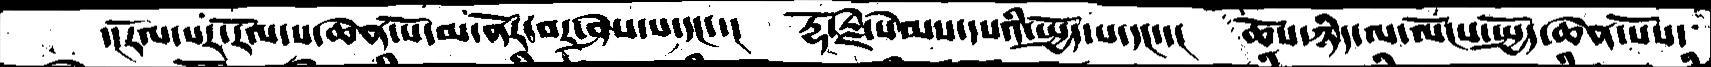་།རོལ་པར་རོལ་པ་ཆེན་པ་མ་ནོར་བར་ཤེས་པ་དང་་།  རྡོ་རྗེ་སེམས་དཔའི་སྤྱོད་པ་དང་་།  ཆོས་ཉིད་ལ་ལོངས་སྤྱོད་ཆེན་པོས་
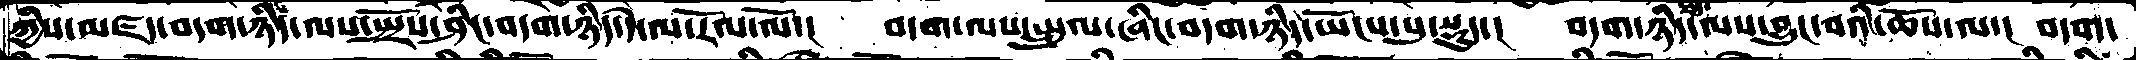ཀྱིས་མཛད་བདག་ཉིད་ལས་སྤྲོས་ཤིང་བདག་ཉིད་དེ་ལ་རོལ་ལོ་།  བདག་ལས་སྤྲུལ་ཞིང་བདག་ཉིད་ཡོངས་སུ་སྡུད་།  བདག་ཉིད་ལས་བྱུང་བའི་ཆོས་ལ་།  བདག་
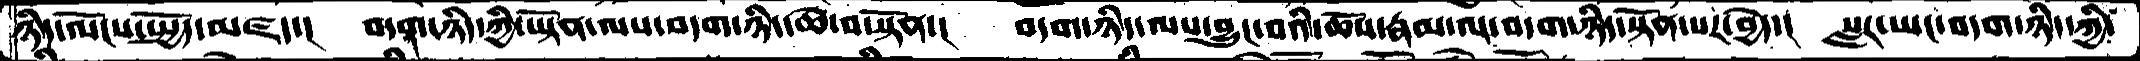ཉིད་ལོངས་སྤྱོད་མཛད་།  བདག་ཉིད་ཀྱི་ཡྟོན་ལས་བདག་ཉིད་ཆེ་བ་སྟོན་།  བདག་ཉིད་ལས་བྱུང་བའི་ཆོས་རྣམ་ལ་བདག་ཉིད་སྟོན་པར་བྱེད་།  སླར་ཡང་བདག་ཉིད་ཀྱི་
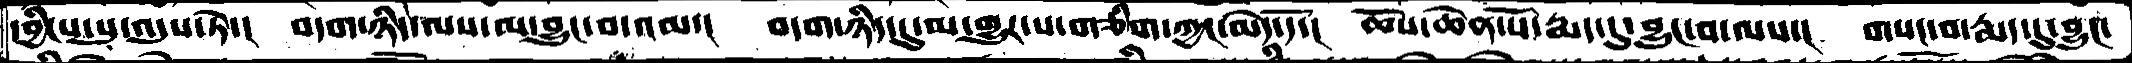དབྱིངས་སུ་འདུས་ཏེ་།   བདག་ཉིད་ལས་མ་བྱུང་བ་འམ་།  བདག་ཉིད་དུ་མ་གྱུར་པ་གཅིག་ཀྱང་མེད་དོ་།   ཆོས་ཆེན་པོ་རྨད་དུ་བྱུང་བ་ལས་།  གསང་བ་རྨད་དུ་བྱུང་
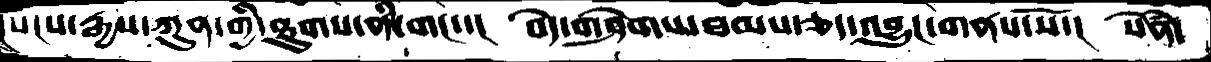སངས་རྒྱས་ཀུན་གྱི་ཐུགས་ནི་གང་་།   བདེ་གཤེགས་ཐམས་ཅད་འབྱུང་གནས་སོ་།  སེཾན་
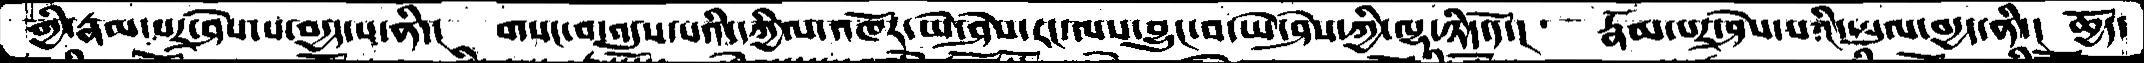གྱི་རྣམ་པར་ཤེས་པ་བདྱད་པ་ནི་།   གསང་བ་འདུས་པའི་དཀྱིལ་འཁོར་ཡེ་ཤེས་རང་ལས་བྱུང་བ་ཡེ་ཤེས་ཀྱི་ལྷ་ཉིད་དོ་།   རྣམ་པར་ཤེས་པའི་ཡུལ་བདྱད་ནི་། ཆྱོད་
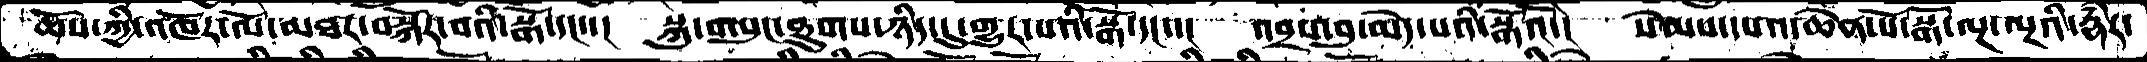ཆོས་ཀྱི་འཁོར་ལོ་མཐར་བསྐོར་བའི་སྒོ་དང་་།  སྐུ་གསུང་ཐུགས་ཉིད་དུ་གྱུར་པའི་སྒོ་དང་་།  འབྲས་བུ་མེད་པའི་སྒོའོ་།  སེམས་དཔའ་ཆེན་པོ་སྒོ་ལྔ་ལྔའི་རྣཾར་
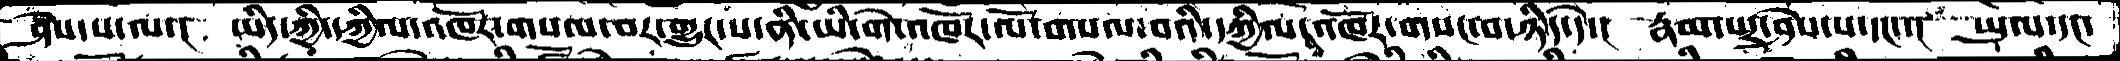ཤེས་པ་ལ་།  ཡིད་ཀྱི་དཀྱིལ་འཁོར་གསལ་བར་གྱུར་པ་ནི་ཡི་གེ་འཁོར་ལོ་གསལ་བའི་དཀྱིལ་འཁོར་གསང་བ་ཉིད་དེ་།  རྣམ་པར་ཤེས་པ་དང་་།  ཡུལ་དང་
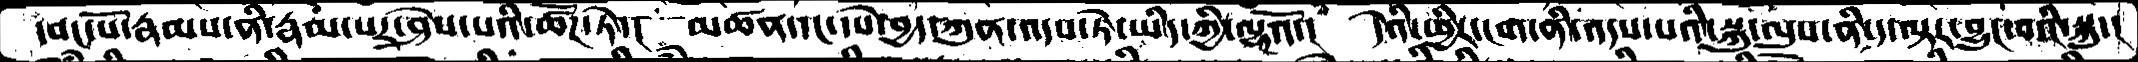དབང་པོ་རྣམས་ནི་རྣམ་པར་ཤེས་པའི་ཚོཌ་ཏེ་།  མཚན་དང་དཔེ་བྱད་ཀུན་འདས་ཏེ་ཡིད་ཀྱི་ལྷའོ་།  དེའི་ཕྱིར་ངག་ནི་འདས་པའི་སྐུ་ལུས་ནི་ད་ལྟར་བྱུང་བའི་སྐུ་།
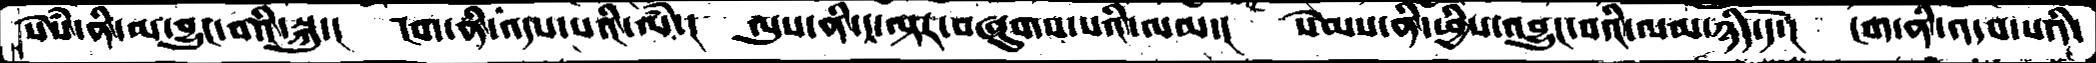སེཾས་ནི་མ་བྱུང་བའི་སྐུ་།  དག་ནི་འདས་པའི་ལཾ་།  ལུས་ནི་ད་ལྟར་བཞུགས་པའི་ལམ་།  སེམས་ནི་ཕྱིས་འབྱུང་བའི་ལམ་ཉིད་དོ་།  ངག་ནི་འདས་པའི་
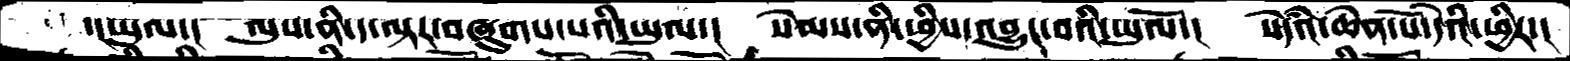་།ཡུལ་།  ལུས་ནི་ད་ལྟར་བཞུགས་པའི་ཡུལ་།  སེམས་ནི་ཕྱིས་འབྱུང་བའི་ཡུལོ་།  སེཾདའ་ཆེན་པོ་དེའི་ཕྱིར་
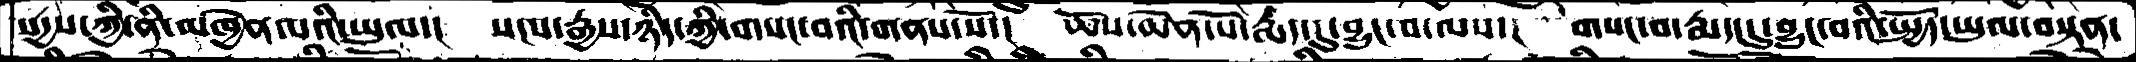སདྱས་ཀྱི་ནི་མཁྱེན་པའི་ཡུལ་།  སངས་རྒྱས་ཉིད་ཀྱི་གསང་བའི་གནས་སོ་།  ཆོས་ཆེན་པོ་རྨད་དུ་བྱུང་བ་ལས་།  གསང་བ་རྨད་དུ་བྱུང་བའི་སྤྱོད་ཡུལ་བསྟན་
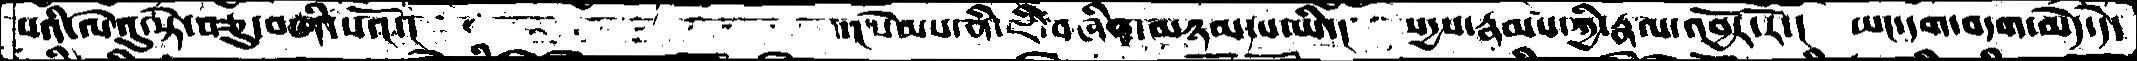པའི་ལེའུ་སྟེ་བཅུ་བཞི་པའོ་།      ་།སེམས་ནི་ཇི་བཞིན་མཉམ་པ་ཡི་།  སདྱས་རྣམས་ཀྱི་རྣལ་འབྱོར་རོ་།  ཡང་དག་བདག་མེད་དེ་
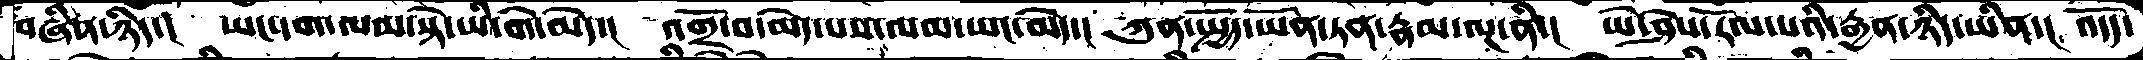བཞིན་ཉིད་།  ཡང་དག་ལམ་སྟེ་ཡི་གེ་མེད་།  འགྲོ་བ་མེད་པས་ལམ་ཡང་མེད་།  ཀུན་སྤྱོད་ཡོན་ཏན་རྣམ་ལྔ་ནི་།  ཡེ་ཤེས་རོལ་པའི་རྒྱན་ཉིད་ཡིན་། འདོད་
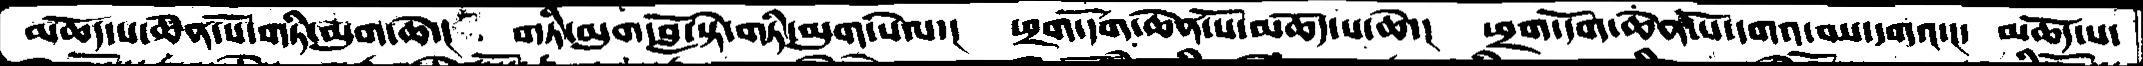མཆོད་པ་ཆེན་པོ་གཏི་མུག་ཆེ་།   གཏི་མུག་བློ་སྟེ་གཏི་མུག་སེལ་།  ཕྲག་དོག་ཆེན་པོ་མཆོད་པ་ཆེ་།  ཕྲག་དོག་ཆེན་པོ་དགའ་བས་དགའ་།་  མཆོད་པ་
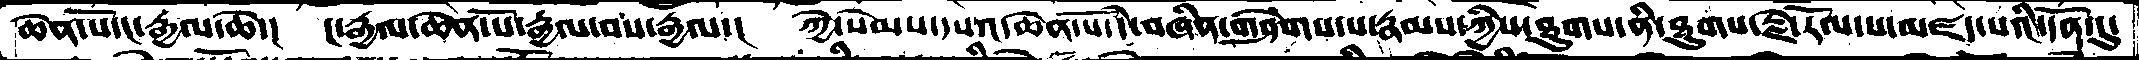ཆེན་པོ་ང་རྒྱལ་ཆེ་།   ང་རྒྱལ་ཆེན་པོ་རྒྱལ་བས་རྒྱལ་།   ཀྱེ་སེམས་དཔའ་ཆེན་པོ་དེ་བཞིན་གཤེགས་པ་རྣམས་ཀྱིས་ཐུགས་ནི་ཐུགས་རྗེ་རོལ་པ་མཛད་པའི་དོན་དུ་
